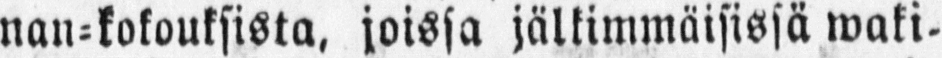nan-kokouksista, joissa jälkimmäisissä waki-
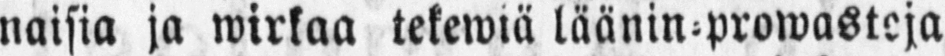naisia ja wirkaa tekewiä läänin-prowasteja
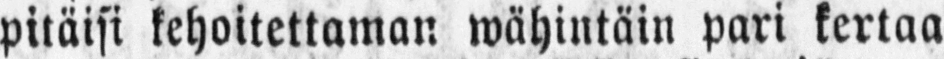pitäisi kehoitettaman wähintäin pari kertaa
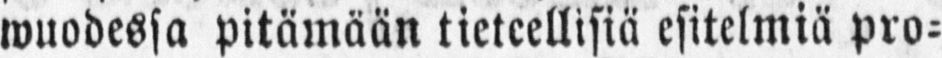wuodessa pitämään tieteellisiä esitelmiä pro-
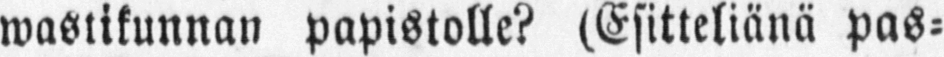wastikunnan papistolle? (Esitteliänä pas-
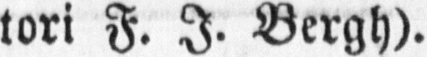tori F. I. Bergh).
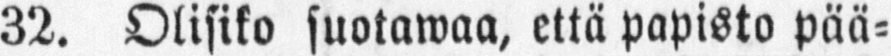32. Olisiko suotawaa, että papisto pää-
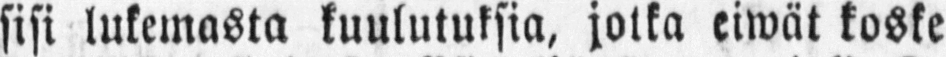sisi lukemasta kuulutuksia, jotka eiwät koske
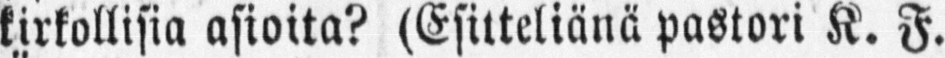kirkollisia asioita? (Esitteliänä pastori K. F.
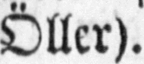Öller).
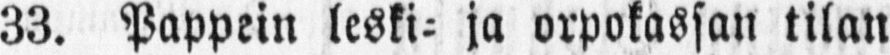33. Pappein leski- ja orpokassan tilan
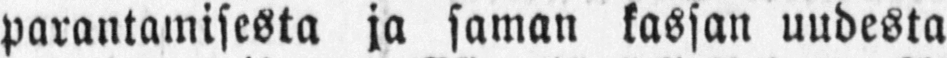parantamisesta ja saman kassan uudesta
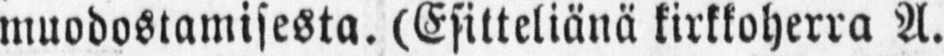muodostamisesta. (Esitteliänä kirkkoherra A.
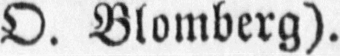O. Blomberg).
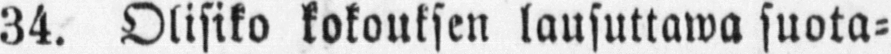34. Olisiko kokouksen lausuttawa suota-
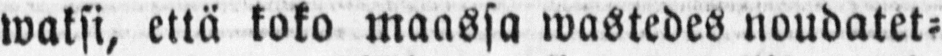waksi, että koko maassa wastedes noudatet-
